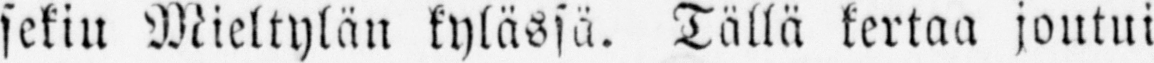sekiu Mieltylän kylässä. Tällä kertaa joutui
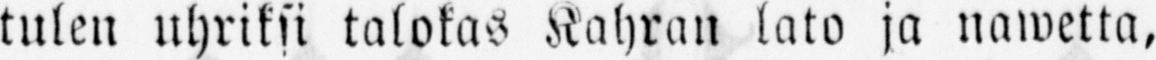tulen uhriksi talokas Kahran lato ja nawetta,
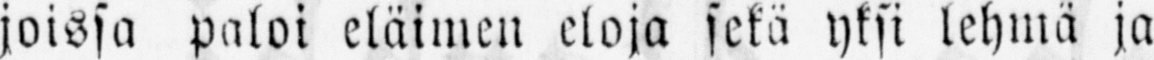joissa paloi eläimen eloja sekä yksi lehmä ja
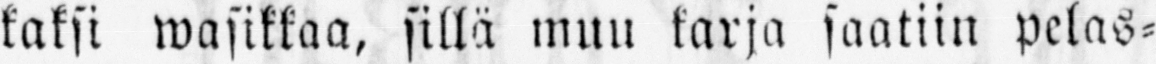kaksi wasikkaa, sillä muu karja saatiin pelas-
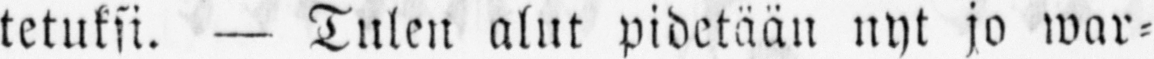tetuksi. — Tulen alut pidetään nyt jo war-
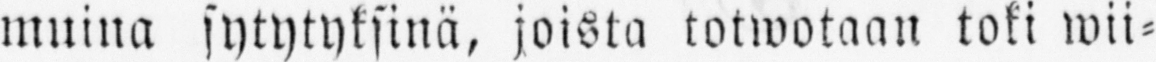muina sytytyksinä, joista totwotaan toki wii-
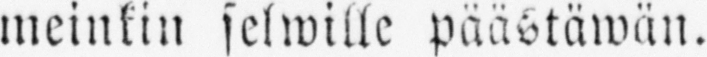meinkin selwille päästäwän.
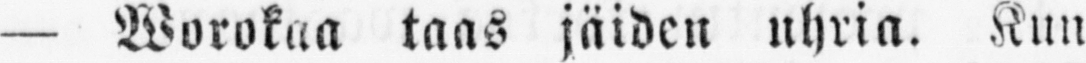— Worokaa taas jäiden uhria. Kun
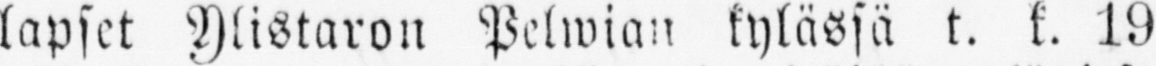lapset Ylistaron Pelwian kylässä t. k. 19
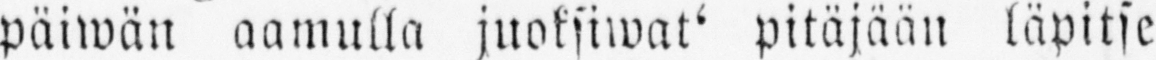päiwän aamulla juoksiwat' pitäjään läpitse
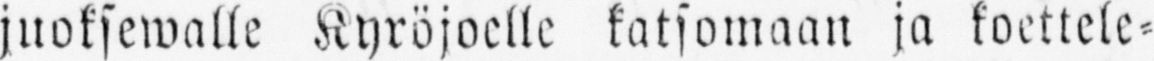juoksewalle Kyröjoelle katsomaan ja koettele-
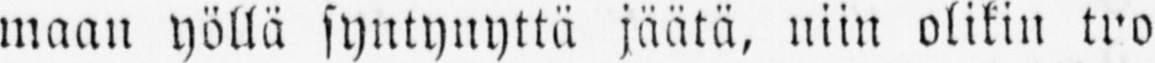maan yöllä syntynyttä jäätä, niin olikin tuo
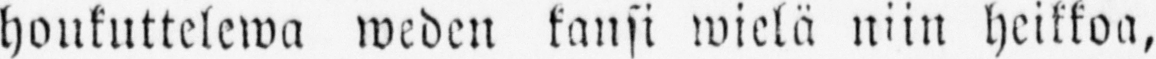houkuttelewa weden kansi wielä niin heikkoa,
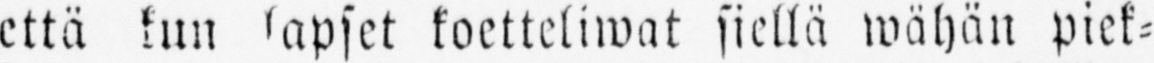että kun lapset koetteliwat siellä wähän piek-
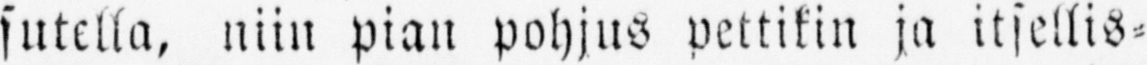sutella, niin pian pohjus pettikin ja itsellis-
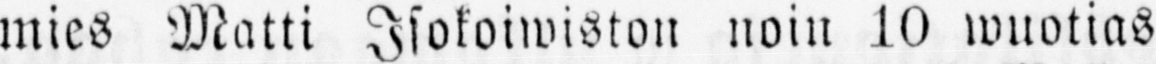mies Matti Isokoiwiston noin 10 wuotias
